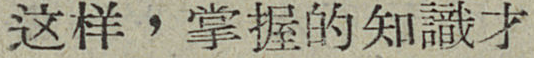这样，掌握的知識才
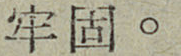牢固。
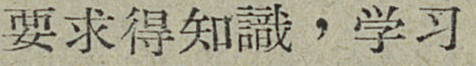要求得知識，学习
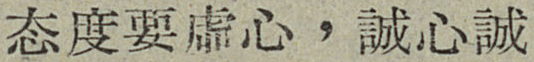态度要虛心，誠心誠
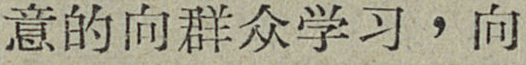意的向群众学习，向
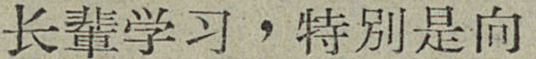长輩学习，特别是向
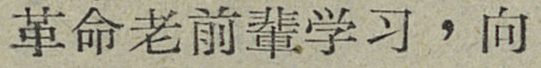革命老前輩学习，向
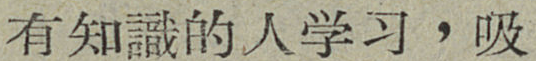有知識的人学习，吸
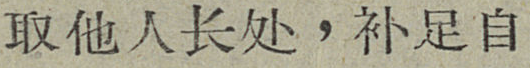取他人长处，补足自
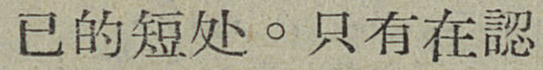己的短处。只有在認
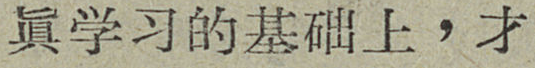眞学习的基础上，才
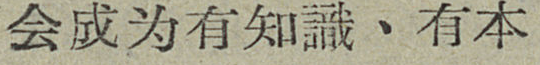会成为有知識、有本
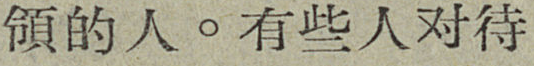領的人。有些人对待
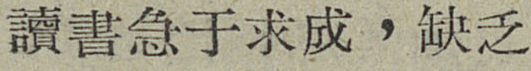讀書急于求成，缺乏
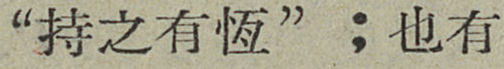“持之有恆”；也有
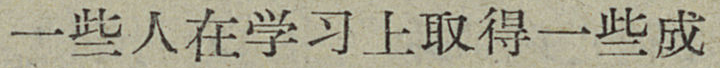一些人在学习上取得一些成
